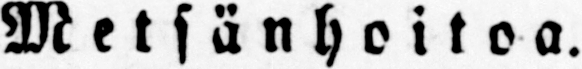Metsänhoitoa.
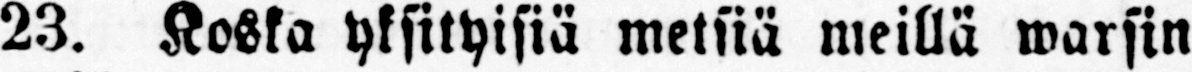23. Koska yksityisiä metsiä meillä warsin
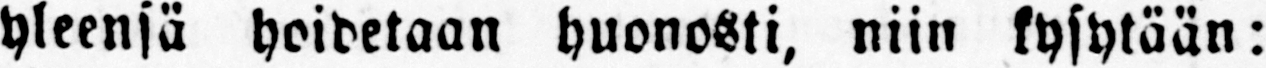yleensä hoidetaan huonosti, niin kysytään:
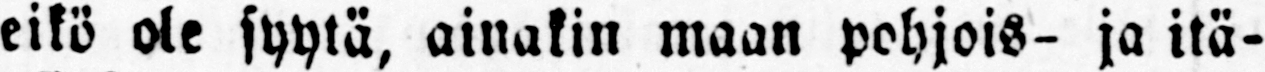eikö ole syytä, ainakin maan Pohjois- ja itä-
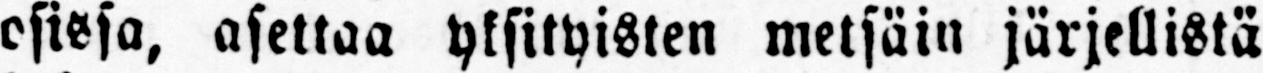osissa, asettaa yksityisten metsäin järjellistä
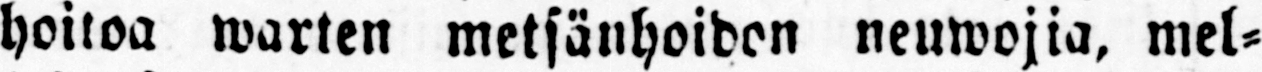hoitoa warten metsänhoidon neuwojia, mel-
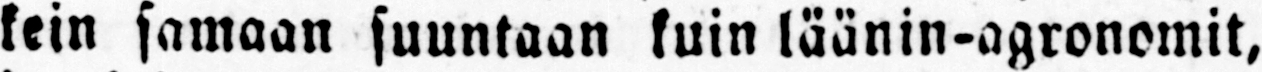kein samaan suuntaan kuin läänin-agronomit,
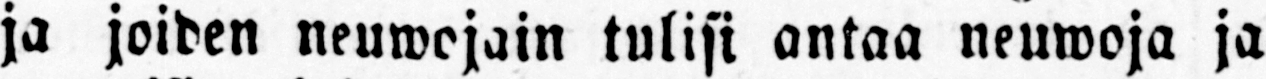ja joiden neuwojain tulisi antaa neuwoja ja
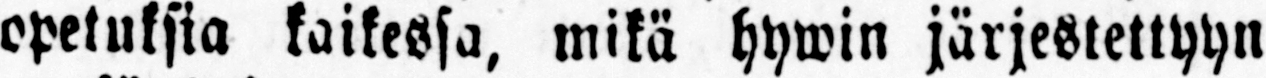opetuksia kaikessa, mikä hywin järjestettyyn
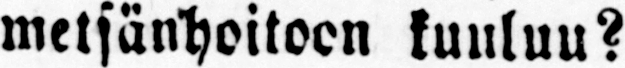metsänhoitoon kuuluu?
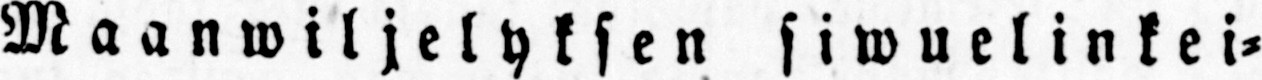Maanwiljelyksen siwuelinkei-
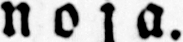noja.
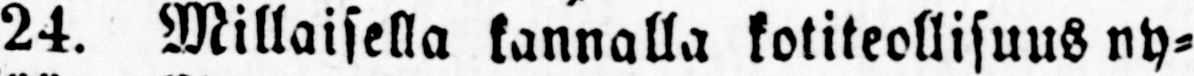24. Millaisella kannalla kotiteollisuus ny-
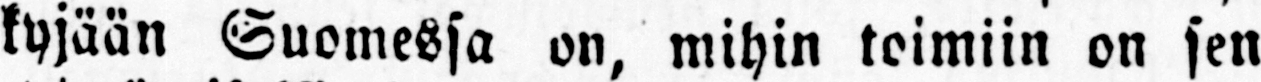kyjään Suomessa on, mihin toimiin on sen
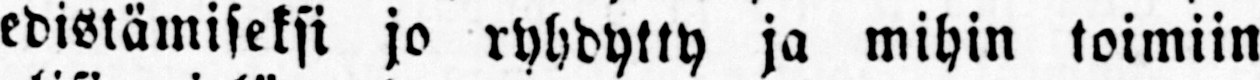edistämiseksi jo ryhdytty ja mihin toimiin
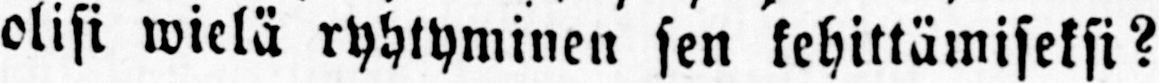olisi wielä ryhtyminen sen kehittämiseksi?
